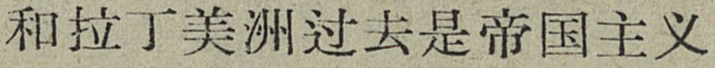和拉丁美洲过去是帝国主义
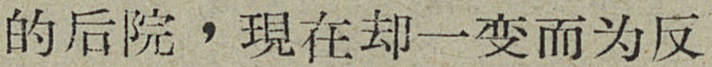的后院，現在却一变而为反
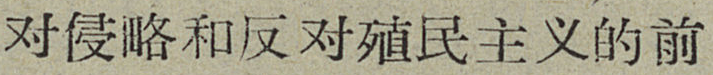对侵略和反对殖民主义的前
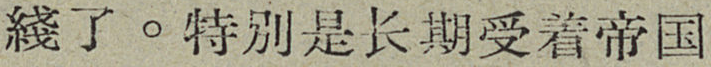綫了。特别是长期受着帝国
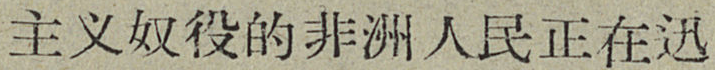主义奴役的非洲人民正在迅
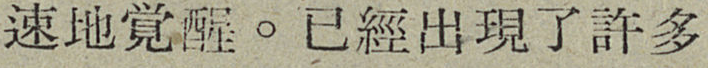速地覚醒。已經出現了許多
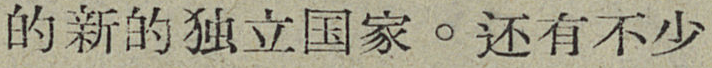的新的独立国家。还有不少
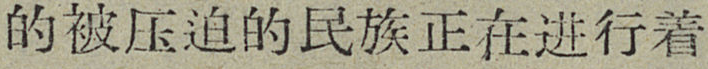的被压迫的民族正在进行着
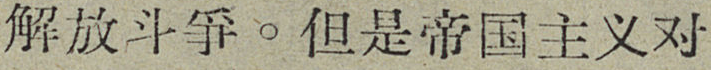解放斗爭。但是帝国主义对
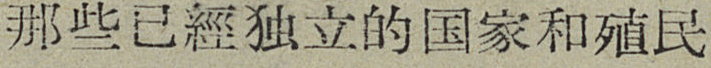那些已經独立的国家和殖民
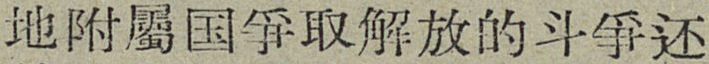地附屬国爭取解放的斗爭还
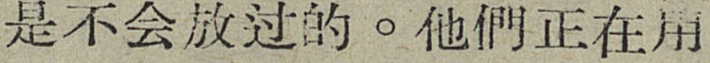是不会放过的。他們正在用
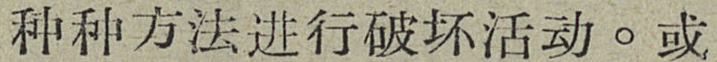种种方法进行破坏活动。或
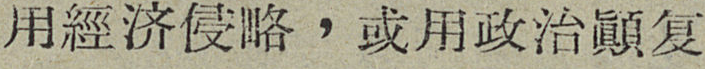用經济侵略，或用政治顚复
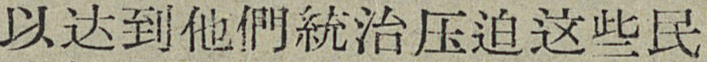以达到他們統治压迫这些民
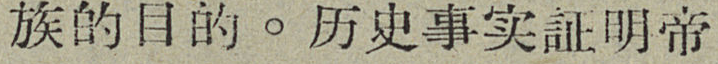族的目的。历史事实証明帝
